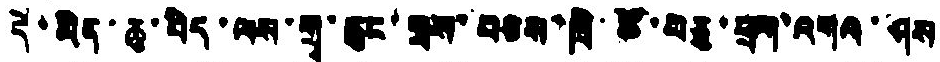དེ་མིན་ཆུ་བེད་ལས་གྲྭ་ཆུང་སྲས་བཅས་ཁྲི་ཚོ་བཅུ་ཕྲག་འགའ་ཤས
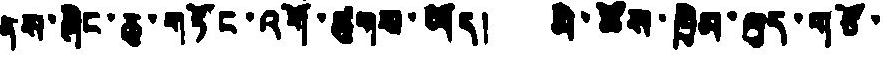ནས་ཞིང་ཆུ་གཏོང་འགོ་ཚུགས་ཡོད། མི་ཚོས་ཁྱིམ་ལུད་གཙོ་
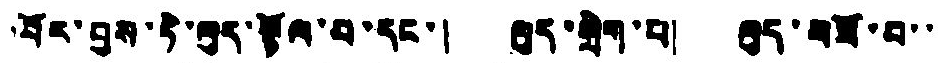བོར་བྱས་ཏེ་ལུད་སྙོལ་བ་དང་། ལུད་སྲེག་པ། ལུད་བཟོ་བ་་
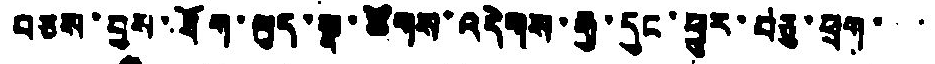བཅས་བྱས་ཐོག་ལུད་སྣ་ཚོགས་འདེགས་རྒྱ་དུང་ཕྱུར་བཅུ་ཕྲག་་་་
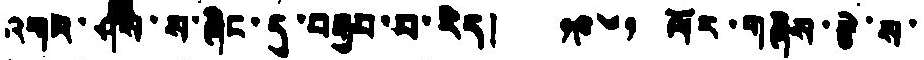འགལ་ཤས་ས་ཞིང་དུ་བརྒྱབ་པ་རེད། ༡༩༦༡ ལོར་གཞིས་རྩེ་ས་་
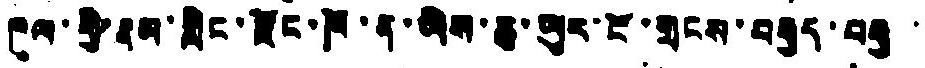ཁུལ་གྱི་རྣམ་གླིང་རྫོང་ཁོ་ན་ཡིས་ཆུ་ཡུར་ངོ་གྲངས་བརྒྱད་བརྒྱ་
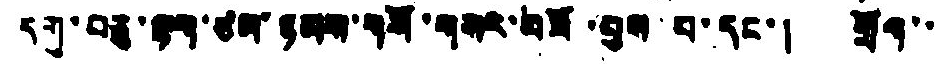དགུ་བཅུ་ལྷག་ཙམ་ཉམས་གསོ་གསར་བཟོ་བྱས་པ་དང་། གྲོག་་
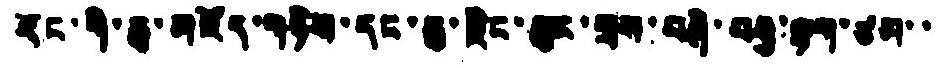རོང་གི་ཆུ་མཛོད་གཉིས་དང་ཆུ་རྫིང་ཆུང་གྲས་བཞི་བརྒྱ་ལྷག་ཙམ་་
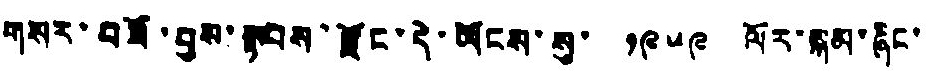གསར་བཟོ་བྱས་སྟབས་རྫོང་དེ་ཡོངས་སུ་ ༡༩༥༩ ལོར་སྐམ་ཞིང་
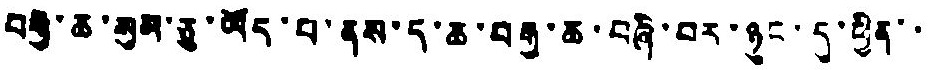བརྒྱ་ཆ་སུམ་ཅུ་ཡོད་པ་ནས་ད་ཆ་བརྒྱ་ཆ་བཞི་བར་ཉུང་དུ་ཕྱིན་་་
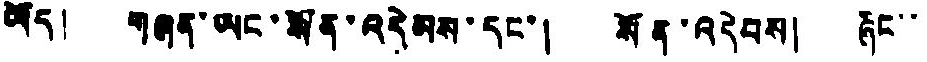ཡོད། གཞན་ཡང་སྒོན་འདེམས་དང་། སོན་འདེབས། ཞིང་་་
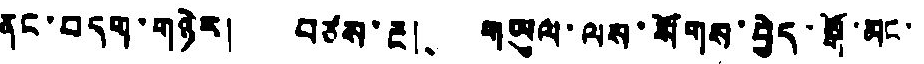ནང་བདག་གཉེར། བཙས་རྔ། གཡུལ་ལས་སོགས་བྱེད་སྒོ་མང་
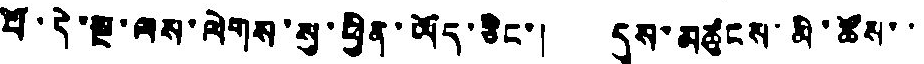པོ་དེ་སྔ་ལས་ལེགས་སུ་ཕྱིན་ཡོད་ཅིང་། དུས་མཚུངས་མི་ཚོས་་
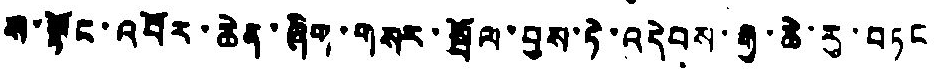ས་སྟོང་འབོར་ཆེན་ཞིག་གསར་སྦོལ་བྱས་ཏེ་འདེབས་རྒྱ་ཆེ་རུ་བཏང
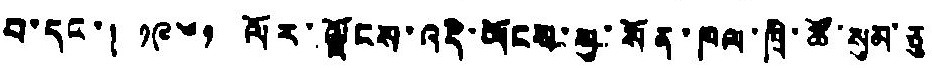བ་དང་། ༡༩༦༡ ལོར་ལྗོངས་འདི་ཡོངས་སུ་སོན་ཁལ་ཁྲི་ཚོ་སུམ་ཅུ
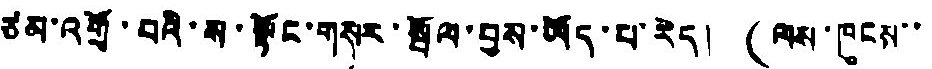ཙམ་འགྲོ་བའི་ས་སྟོང་གསར་སྦོལ་བྱས་ཡོད་པ་རེད། (ལས་ཁུངས་་
